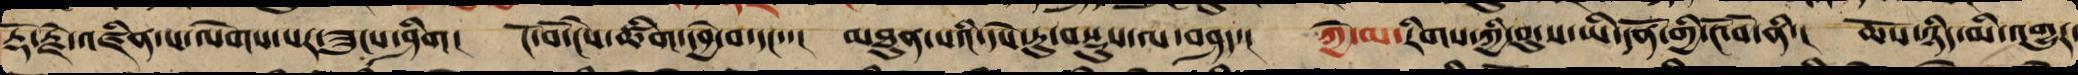རྡོ་རྗེ་འཛིན་པ་ལེགས་པར་ཟུངས་ཤིག། ངོ་བོ་ངེས་ཚིག་དབྱེ་བ་དང་་། མཐུན་པའི་དཔེ་རུ་བསྡུས་ལ་བཤད་། ཀྱེ་མ་རིགས་ཀྱི་བུ་ས་ཡི་དོན་གྱི་ངོ་བོ་ནི་། ཆོས་ཉིད་མི་འགྱུར་
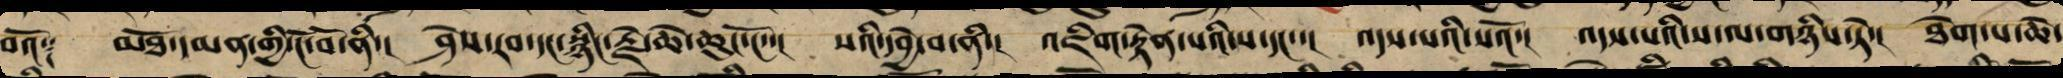བའོ༑ མཐོ་དམན་གྱི་ངོ་བོ་ནི་། ཤེས་རབ་དང་སྙིང་རྗེ་ཆེ་ཆུང་ངོ་་། སའི་དབྱེ་བ་ནི་། འཇིག་རྟེན་པའི་ས་དང་་། འདས་པའི་སའོ་། འདས་པའི་ས་ལ་གཉིས་ཏེ་། ཐེག་པ་ཆེ་
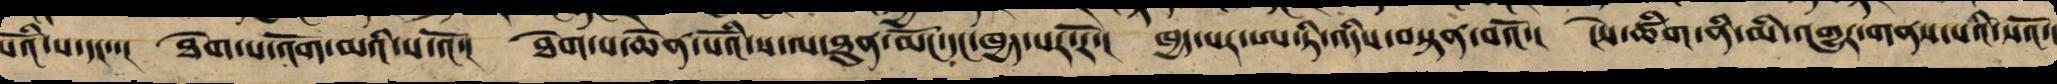པོའི་ས་དང་་། ཐེག་པ་འོག་མའི་ས་འོ་། ཐེག་པ་ཆེན་པོའི་ས་ལ་ཐུན་མོང་དང་ཁྱད་པར་རོ་། ཁྱད་པར་ཨ་ཏི་འདིས་བསྟན་བའོ་། ངེས་ཚིག་ནི་མི་འགྱུར་གནས་པའི་སའོ་།
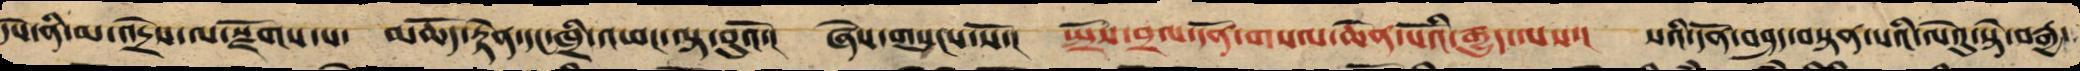དེས་ནི་མ་འདྲེས་ལ་སྫོགས་པ་ མཆོད་རྟེན་དང་ཁྲི་འཕང་ལྟ་བུའོ་། ཞེས་གསུངས་སོ་། སྤྲོས་བྲལ་དོན་གསལ་ཆེན་པོའི་རྒྱུད་ལས་། སའི་དོན་བཤད་བསྟན་པའི་ལེའུ་སྟེ་བརྒྱ་
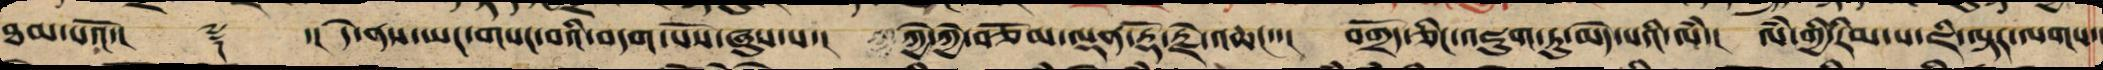ཐམ་པའོ་།། ༈ ་། དེ་ནས་ཡང་གསང་བའི་བདག་པོས་ཞུས་པ་། ཀྱེ་ཀྱེ་བཅོམ་ལྡན་རྡོ་རྗེ་འཆང་་། བགྲོད་ཅིང་འཇུག་ཏུ་མེད་པའི་ལཾ་། ལཾ་གྱི་རིམ་པ་ཇི་ལྟར་ལགས་།
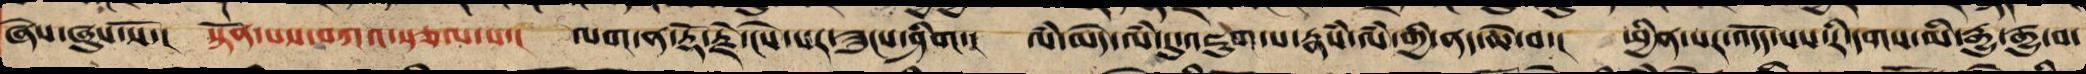ཞེས་ཞུས་སོ་། སྟོན་པས་བཀའ་སྩལ་པ་། ལག་ན་རྡོ་རྗེ་ངེས་པར་ཟུངས་ཤིག་། ལཾ་མེད་ལཾ་དུ་འཇུག་པ་རྣཾས་ལཾ་གྱི་ནད་ཆེ་བ་། ཕྱིན་པར་འདོད་པས་རི་དགས་མི་རྒྱུ་རྒྱུ་བ་
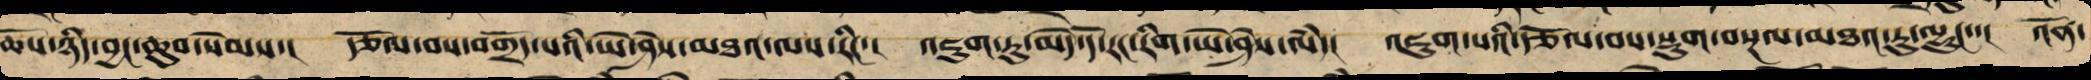ཆོས་ཉིད་བྱང་ཆུབ་སེམས་། རྩོལ་བས་བགྲོད་པའི་ཡེ་ཤེས་མཐའ་ལས་རིང་། འཇུག་ཏུ་མེད་དོ་རང་རིག་ཡེ་ཤེས་ལཾ་། འཇུག་པའི་རྩོལ་བས་སྡུག་བསྔལ་མཐའ་རུ་ལྷུང་་། འོན་
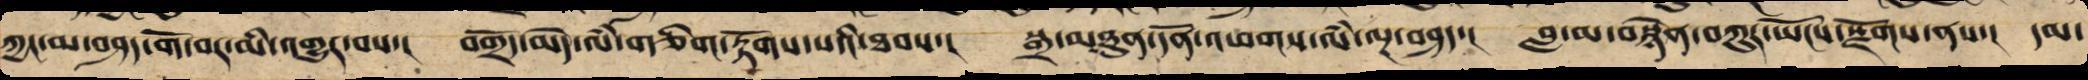ཀྱང་མ་བཤད་གོ་བར་མི་འགྱུར་བས་། བགྲོད་མེད་ལཾ་གཅིག་རྟོགས་པའི་ཐབས་། སྒྲ་མཐུན་དོན་འཕགས་ལཾ་ལྔ་བཤད་། བླ་མར་བསྙེན་བཀུར་ཡོངས་སྫོགས་ནས་། དམ་
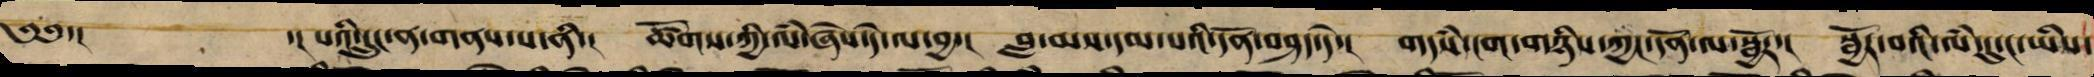༄༅་། ་། པའི་དྲུང་ན་གནས་པ་ནི་། ཚོགས་ཀྱི་ལཾ་ཞེས་དེ་ལ་བྱ་། བླ་མས་དམ་པའི་དོན་བཤད་དེ་། གདཾས་ངག་གཉིས་ཀྱང་དོན་ལ་སྦྱོར་། སྦྱོར་བའི་ལཾ་དུ་ང་ཡིས་
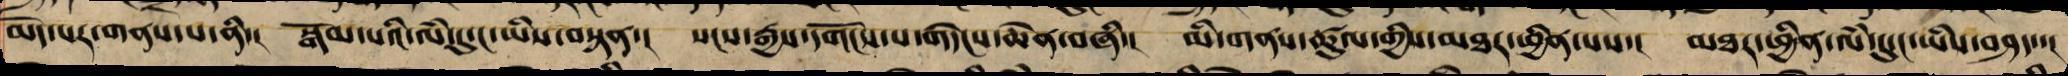མེད་པར་གནས་པ་ནི་། སྒོམ་པའི་ལཾ་དུ་ང་ཡིས་བསྟན་། སངས་རྒྱས་དགོངས་པ་གདེངས་ཆེན་བཞི་། མི་གནས་ཚུལ་གྱིས་མཐར་ཕྱིན་པས་། མཐར་ཕྱིན་ལཾ་དུ་ང་ཡིས་བཤད་་།
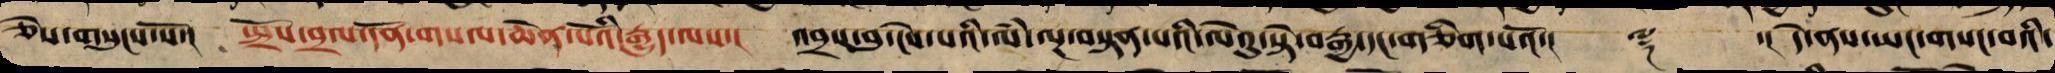ཅེས་གསུངས་སོ་། སྤྲོས་བྲལ་དོན་གསལ་ཆེན་པོའི་རྒྱུད་ལས་། འབྲས་བུ་ངེས་པའི་ལཾ་ལྔ་བསྟན་པའི་ལེའུ་སྟེ་བརྒྱ་དང་གཅིག་པའོ་།། ༈ ་། དེ་ནས་ཡང་གསང་བའི་
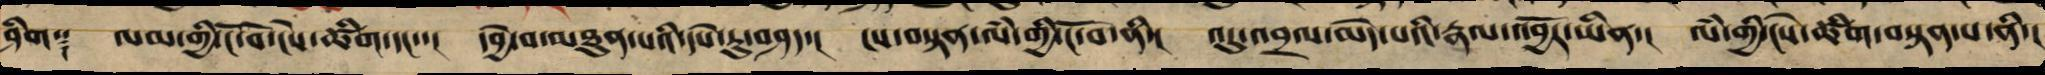ཤིག༑ ལམ་གྱི་ངོ་བོ་ངེས་ཚིག་དང་་། དབྱེ་བ་མཐུན་པའི་དཔེ་རུ་བཤད་། ངས་བསྟན་ལཾ་གྱི་ངོ་བོ་ནི་། འདུ་འབྲལ་མེད་པའི་རྣལ་འབྱོར་ཡིན་། ལཾ་གྱི་ངེས་ཚིག་བསྟན་པ་ནི་།
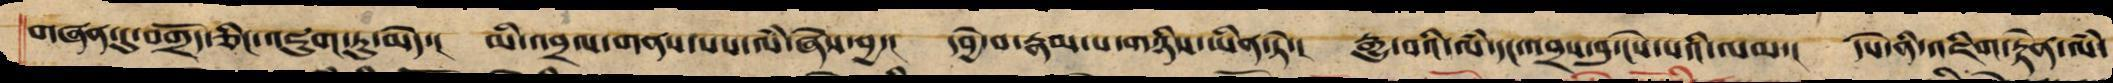གཞན་དུ་བགྲོད་ཅིང་འཇུག་ཏུ་མེད་། མི་འབྲལ་གནས་པས་ལཾ་ཞེས་བྱ་། དབྱེ་བ་རྣམ་པ་གཉིས་ཡིན་ཏེ་། རྒྱུ་བའི་ལཾ་དང་འབྲས་བུ་ངེས་པའི་ལམ་། དཔེ་ནི་འཇིག་རྟེན་ལཾ་
